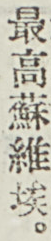最高蘇維埃。
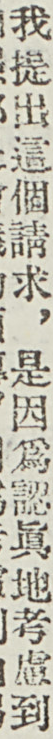我提出這個請求，是因爲認眞地考慮到
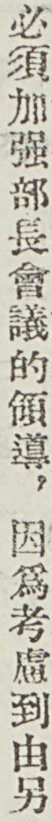必須加強部長會議的領導，因爲考慮到由另
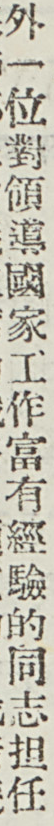外一位對領導國家工作富有經驗的同志担任
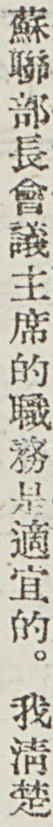蘇聯部長會議主席的職務是適宜的。我清楚
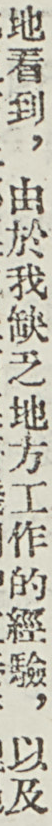地看到，由於我缺乏地方工作的經驗，以及
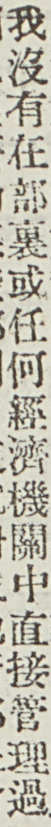我沒有在部裏或任何經濟機關中直接管理過
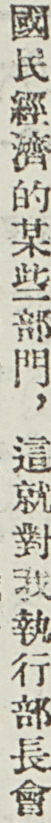國民經濟的某些部門，這就對我執行部長會
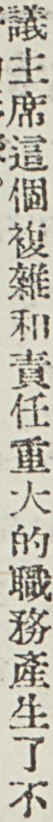議主席這個複雜和責任重大的職務產生了不
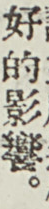好的影響。
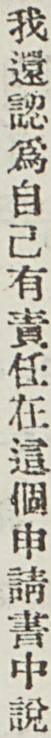我還認爲自己有責任在這個申請書中說
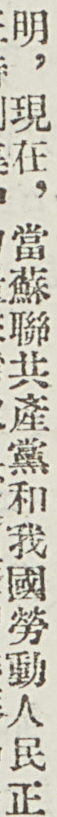明，現在，當蘇聯共產黨和我國勞動人民正
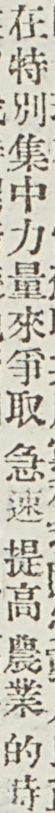在特別集中力量來爭取 急速 提高 農業的時
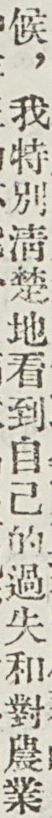候，我特別清楚地看到自己的過失和對農業
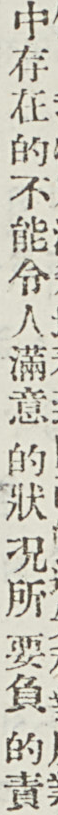中存在的不能令人滿意 的狀況所 要負 的責
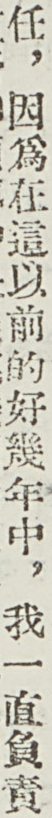任，因爲在這以前的好幾年中，我一直負責
